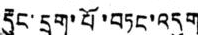རྡུང་དྲག་པོ་བཏང་འདུག
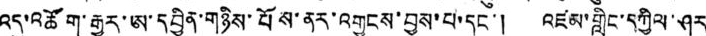འདུ་འཚོག་རྒྱུར་ཨ་དབྱིན་གཉིས་པོས་ནར་འགྱངས་བྱས་པ་དང་། འཛམ་གླིང་དཀྱིལ་ཤར
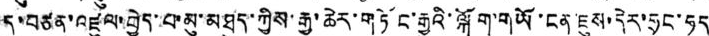དུ་བཙན་འཛུལ་བྱེད་པ་མུ་མཐུད་ཀྱིས་རྒྱ་ཆེར་གཏོང་རྒྱུའི་ལྐོག་གཡོ་ངན་ཇུས་དེར་ཧྲང་ཧད
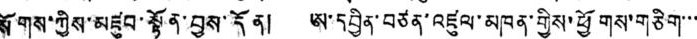སོགས་ཀྱིས་མཇུབ་སྟོན་བྱས་དོན། ཨ་དབྱིན་བཏན་འཛུལ་མཁན་གྱིས་ཕྱོགས་གཅིག་་་
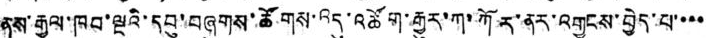ནས་རྒྱལ་ཁབ་ལྔའི་དབུ་བཞུགས་ཚོགས་འདུ་འཚོག་རྒྱུར་ཀ་ཀོར་ནར་འགྱངས་བྱེད་པ་་་་
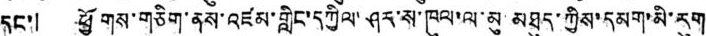དང་། ཕྱོགས་གཅིག་ནས་འཛམ་གླིང་དཀྱིལ་ཤར་ས་ཁུལ་ལ་མུ་མཐུད་ཀྱིས་དམག་མི་རུག
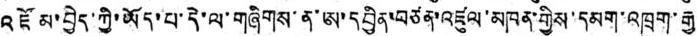འཛོམ་བྱེད་ཀྱི་ཡོད་པ་དེ་ལ་གཞིགས་ན་ཨ་དབྱིན་བཙན་འཛུལ་མཁན་གྱིས་དམག་འཁྲུག་རྒྱ་
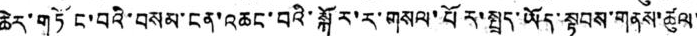ཆེར་གཏོང་བའི་བསམ་ངན་འཆང་བའི་སྐོར་ར་གསལ་པོར་སྤྲད་ཡོད་སྟབས་གནས་ཚུལ་
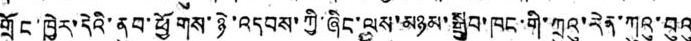གྲོང་ཁྱེར་དེའི་ནུབ་ཕྱོགས་ཉེ་འདབས་ཀྱི་ཞིང་ལས་མཉམ་སྒྲུབ་ཁང་གི་ཀྲུའུ་རེན་ཀུའུ་བུའུ་
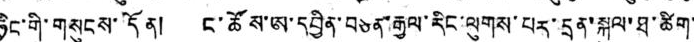ཧྲིང་གི་གསུངས་དོན། ང་ཚོས་ཨ་དབྱིན་བཙན་རྒྱལ་རིང་ལུགས་པར་དྲན་སྐུལ་ཐ་ཚིག་
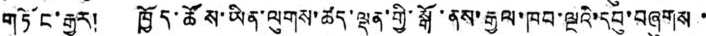གཏོང་རྒྱུར། ཁྱོད་ཚོས་ཡིན་ལུགས་ཚད་ལྡན་གྱི་སྒོ་ནས་རྒྱལ་ཁབ་ལྔའི་དབུ་བཞུགས་
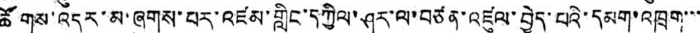ཚོགས་འདུར་མ་ཞུགས་པར་འཛམ་གླིང་དཀྱིལ་ཤར་ལ་བཙན་འཛུལ་བྱེད་པའི་དམག་འཁྲུག་་་
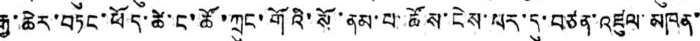རྒྱ་ཆེར་བཏང་ཕོད་ཚེ་ང་ཚོ་ཀྲུང་གོའི་སོ་ནམ་པ་ཚོས་ངེས་པར་དུ་བཙན་འཛུལ་མཁན་
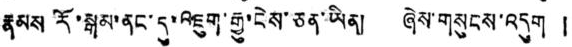རྣམས་རོ་སྒམ་ནང་དུ་འཇུག་རྒྱུ་ངེས་ཅན་ཡིན། ཞེས་གསུངས་འདུག །
